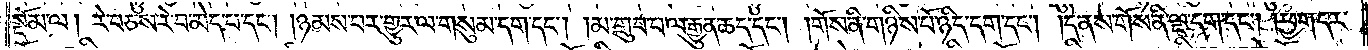སྡོམ་ལ། རེ་བཅས་རེ་བ་མེད་པ་དང༌། །ཉམས་པར་གྱུར་ལ་གསུམ་དག་དང༌། །མ་གྲུབ་པ་ལ་རྒྱུན་ཆད་དང༌། །གོས་ནི་གཉིས་པོ་ཉིད་དག་དང༌། །དེ་ནས་གོས་ནི་ལྔ་དག་དང༌། །ཕྱག་དར་
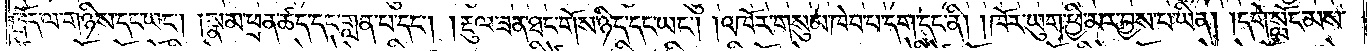ཁྲོད་ལ་གཉིས་དང་ཡང༌། །སྣམ་ཕྲན་ཚད་དང་གླན་པ་དང༌། །རྡུལ་ཟན་ཐང་གོས་ཉིད་དང་ཡང༌། །འཁོར་གསུམ་ཁེབ་པ་དག་དང་ནི། །ཁོར་ཡུག་ཕྱི་མར་བྱས་པ་ཡིན། །དགེ་སློང་མས་
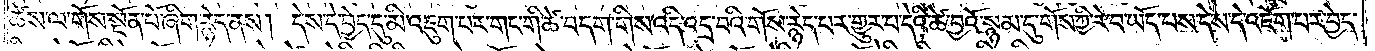ཚེས་ལ་གོས་སྔོན་པོ་ཞིག་རྙེད་ནས། དེས་དེ་བྱེད་དུ་མི་འཇུག་པར་གང་གི་ཚེ་བདག་གིས་འདི་འདྲ་བའི་གོས་རྙེད་པར་གྱུར་པ་དེའི་ཆེ་བྱའོ་སྙམ་དུ་གོས་ཀྱི་རེ་བ་ཡོད་པས་དེས་དེ་འཇོག་པར་བྱེད་
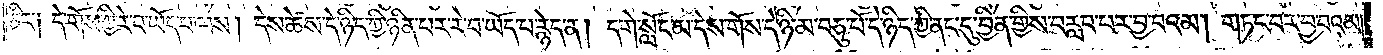ཅིང་༑ དེ་གོས་ཀྱི་རེ་བ་ཡོད་པ་ལས། དེས་ཚེས་དེ་ཉིད་ཀྱི་ཉིན་པར་རེ་བ་ཡོད་པ་རྙེད་ན། དགེ་སློང་མ་དེས་གོས་དེ་ཉི་མ་བཅུ་པོ་དེ་ཉིད་ཀྱི་ནང་དུ་བྱིན་གྱིས་བརླབ་པར་བྱ་བའམ། གཏང་བར་བྱ་བའམ།
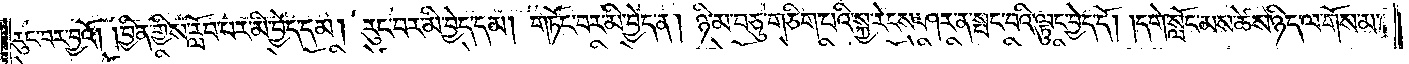རུང་བར་བྱའོ། །བྱིན་གྱིས་རློབ་པར་མི་བྱེད་དམ། རུང་བར་མི་བྱེད་དམ། གཏོང་བར་མི་བྱེད་ན། ཉི་མ་བཅུ་གཅིག་པའི་སྐྱ་རེངས་ཤར་ན་སྤང་བའི་ལྟུང་བྱེད་དོ། །དགེ་སློང་མས་ཚེས་ཉིད་ལ་གོས་མ་
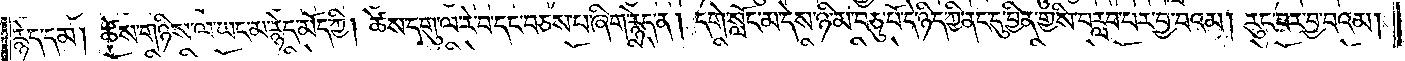རྙེད་དམ། ཚེས་གཉིས་ལ་ཡང་མ་རྙེད་མོད་ཀྱི། ཚེས་དགུ་ལ་རེ་བ་དང་བཅས་པ་ཞིག་རྙེད་ན། དགེ་སློང་མ་དེས་ཉི་མ་བཅུ་པོ་དེ་ཉིད་ཀྱི་ནང་དུ་བྱིན་གྱིས་བརླབ་པར་བྱ་བའམ། རུང་བར་བྱ་བའམ།
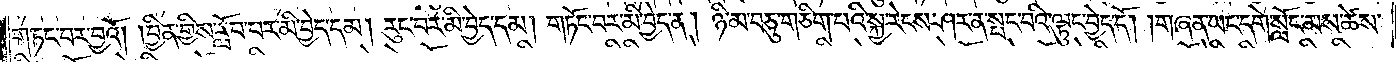གཏང་བར་བྱའོ། །བྱིན་གྱིས་རློབ་པར་མི་བྱེད་དམ། རུང་བར་མི་བྱེད་དམ། གཏོང་བར་མི་བྱེད་ན། ཉི་མ་བཅུ་གཅིག་པའི་སྐྱ་རེངས་ཤར་ན་སྤང་བའི་ལྟུང་བྱེད་དོ། །གཞན་ཡང་དགེ་སློང་མས་ཚེས་
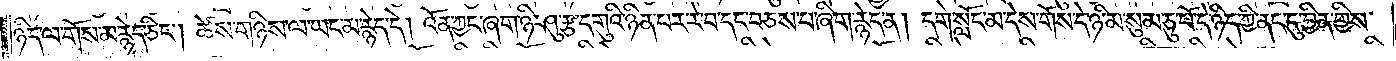ཉིད་ལ་གོས་མ་རྙེད་ཅིང༌། ཚེས་གཉིས་ལ་ཡང་མ་རྙེད་དེ། འོན་ཀྱང་ཞག་ཉི་ཤུ་རྩ་དགུའི་ཉིན་པར་རེ་བ་དང་བཅས་པ་ཞིག་རྙེད་ན། དགེ་སློང་མ་དེས་གོས་དེ་ཉི་མ་སུམ་ཅུ་པོ་དེ་ཉིད་ཀྱི་ནང་དུ་བྱིན་གྱིས་
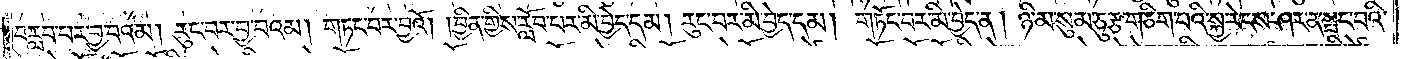བརླབ་པར་བྱ་བའམ། རུང་བར་བྱ་བའམ། གཏང་བར་བྱའོ། །བྱིན་གྱིས་རློབ་པར་མི་བྱེད་དམ། རུང་བར་མི་བྱེད་དམ། གཏོང་བར་མི་བྱེད་ན། ཉི་མ་སུམ་ཅུ་རྩ་གཅིག་པའི་སྐྱ་རེངས་ཤར་ནས་སྤང་བའི་
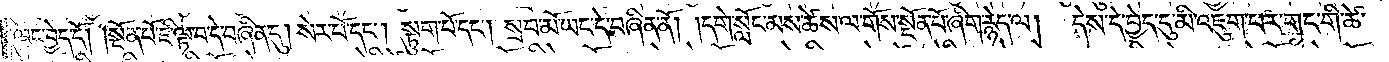ལྟུང་བྱེད་དོ། །སྔོན་པོ་ཇི་ལྟ་བ་དེ་བཞིན་དུ། སེར་པོ་དང༌། སྟུག་པོ་དང༌། སྲབ་མོ་ཡང་དེ་བཞིན་ནོ། །དགེ་སློང་མས་ཚེས་ལ་གོས་སྔོན་པོ་ཞིག་རྙེད་ལ། དེས་དེ་བྱེད་དུ་མི་འཇུག་པར་གང་གི་ཚེ་
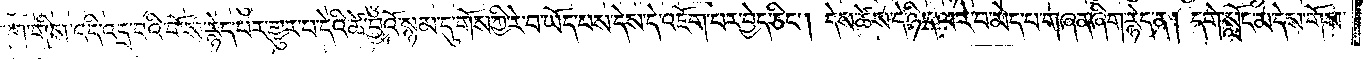བདག་གིས་འདི་འདྲ་བའི་གོས་རྙེད་པར་གྱུར་པ་དེའི་ཚེ་བྱའོ་སྙམ་དུ་གོས་ཀྱི་རེ་བ་ཡོད་པས་དེས་དེ་འཇོག་པར་བྱེད་ཅིང༌། དེས་ཚེས་དེ་ཉིད་ལ་རེ་བ་མེད་པ་གཞན་ཞིག་རྙེད་ན། དགེ་སློང་མ་དེས་གོས་
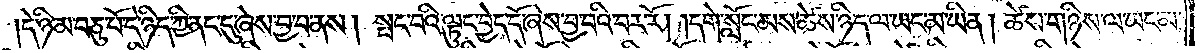དེ་ཉི་མ་བཅུ་པོ་དེ་ཉིད་ཀྱི་ནང་དུ་ཞེས་བྱ་བ་ནས། སྤང་བའི་ལྟུང་བྱེད་དོ་ཞེས་བྱ་བའི་བར་རོ། །དགེ་སློང་མས་ཚེས་ཉིད་ལ་ཡང་མ་ཡིན། ཚེས་གཉིས་ལ་ཡང་མ་
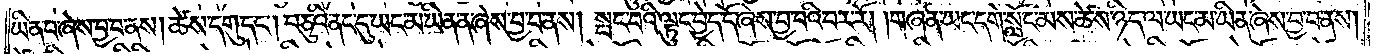ཡིན་པ་ཞེས་བྱ་བ་ནས། ཚེས་དགུ་དང༌། བཅུའི་ནང་དུ་ཡང་མ་ཡིན་ན་ཞེས་བྱ་བ་ནས། སྤང་བའི་ལྟུང་བྱེད་དོ་ཞེས་བྱ་བའི་བར་རོ། །གཞན་ཡང་དགེ་སློང་མས་ཚེས་ཉིད་ལ་ཡང་མ་ཡིན་ཞེས་བྱ་བ་ནས།
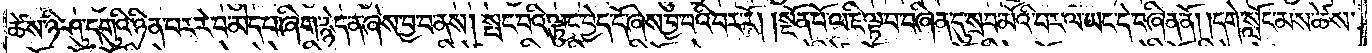ཚེས་ཉི་ཤུ་དགུའི་ཉིན་པར་རེ་བ་མེད་པ་ཞིག་རྙེད་ན་ཞེས་བྱ་བ་ནས། སྤང་བའི་ལྟུང་བྱེད་དོ་ཞེས་བྱ་བའི་བར་རོ། །སྔོན་པོ་ལ་ཇི་ལྟ་བ་བཞིན་དུ་སྲབ་མོའི་བར་ལ་ཡང་དེ་བཞིན་ནོ། །དགེ་སློང་མས་ཚེས་
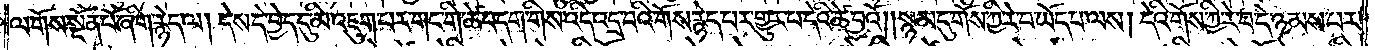ལ་གོས་སྔོན་པོ་ཞིག་རྙེད་ལ། དེས་དེ་བྱེད་དུ་མི་འཇུག་པར་གང་གི་ཚེ་བདག་གིས་འདི་འདྲ་བའི་གོས་རྙེད་པར་གྱུར་པ་དེའི་ཚེ་བྱའོ། །སྙམ་དུ་གོས་ཀྱི་རེ་བ་ཡོད་པ་ལས། དེའི་གོས་ཀྱི་རེ་བ་དེ་ཉམས་པར་
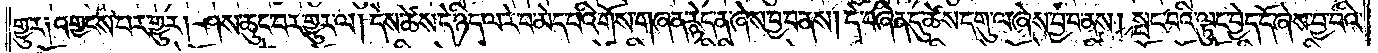གྱུར༑ འགྱངས་པར་གྱུར། ཤས་ཆུང་བར་གྱུར་ལ། དེས་ཚེས་དེ་ཉིད་ལ་རེ་བ་མེད་པའི་གོས་གཞན་རྙེད་ན་ཞེས་བྱ་བ་ནས། དེ་བཞིན་དུ་ཚེས་དགུ་ལ་ཞེས་བྱ་བ་ནས། སྤང་བའི་ལྟུང་བྱེད་དོ་ཞེས་བྱ་བའི་
